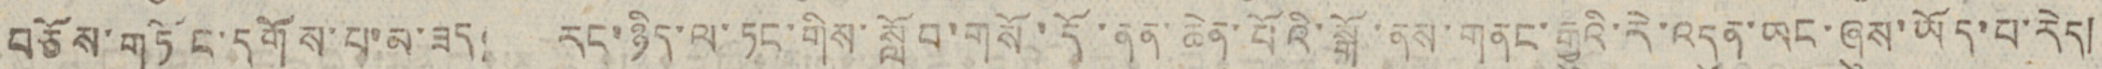བཅོས་གཏོང་དགོས་པ་མ་ཟད། རང་ཉིད་ལ་ཏང་གིས་སློབ་གསོ་དོ་ནན་ཆེན་པོའི་སྒོ་ནས་གནང་རྒྱུའི་རེ་འདུན་ཡང་ཞུས་ཡོད་པ་རེད།
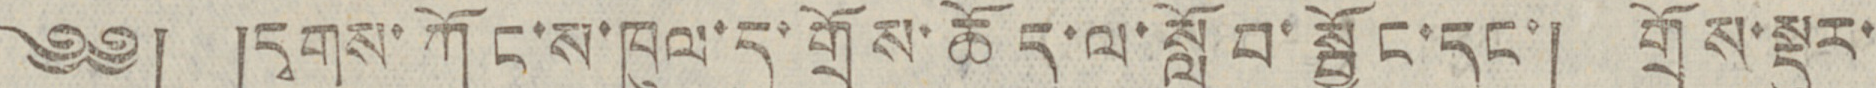༄༅། །དྭགས་ཀོང་ས་ཁུལ་དུ་གྲོས་ཆོད་ལ་སློབ་སྦྱོང་དང་། གྲོས་སྡུར་
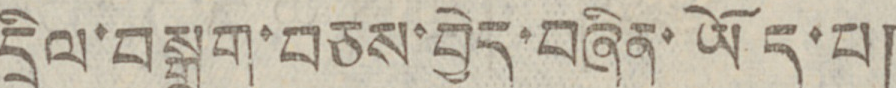དྲིལ་བསྒྲག་བཅས་བྱེད་བཞིན་ཡོད་པ།
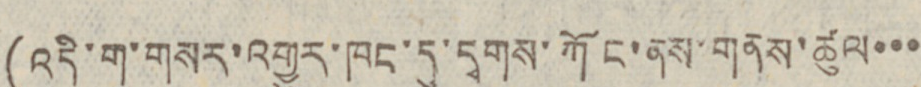(འདི་ག་གསར་འགྱུར་ཁང་དུ་དྭགས་ཀོང་ནས་གནས་ཚུལ་་་
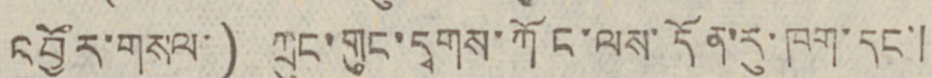འབྱོར་གསལ་) ཀྲུང་གུང་དྭགས་ཀོང་ལས་དོན་རུ་ཁག་དང་།
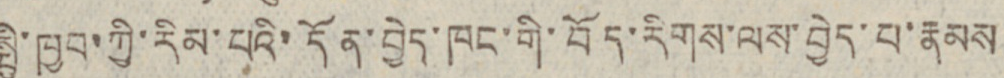སྤྱི་ཁྱབ་ཀྱི་རིམ་པའི་དོན་བྱེད་ཁང་གི་བོད་རིགས་ལས་བྱེད་པ་རྣམས
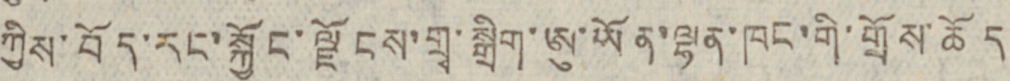ཀྱིས་བོད་རང་སྐྱོང་ལྗོངས་གྲྭ་སྒྲིག་ཨུ་ཡོན་ལྷན་ཁང་གི་གྲོས་ཆོད
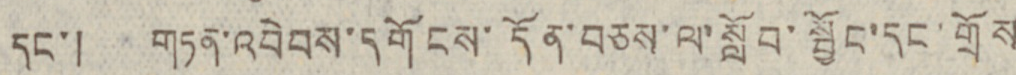དང་། གཏན་འབེབས་དགོངས་དོན་བཅས་ལ་སློབ་སྦྱོང་དང་གྲོས
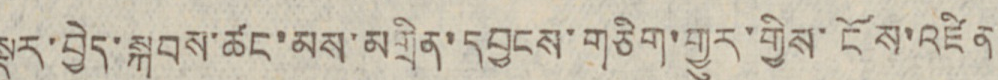སྡུར་བྱེད་སྐབས་ཚང་མས་མགྲིན་དབྱངས་གཅིག་གྱུར་གྱིས་ངོས་འཛིན
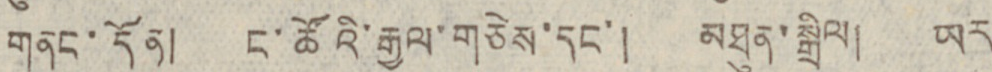གནང་དོན། ང་ཚོའི་རྒྱལ་གཅེས་དང་། མཐུན་སྒྲིལ། ཡར་
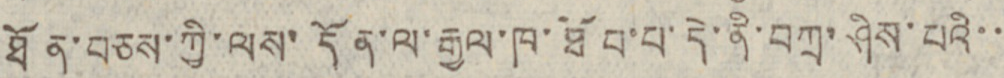ཐོན་བཅས་ཀྱི་ལས་དོན་ལ་རྒྱལ་ཁ་ཐོབ་པ་དེ་ནི་བཀྲ་ཤིས་པའི་་
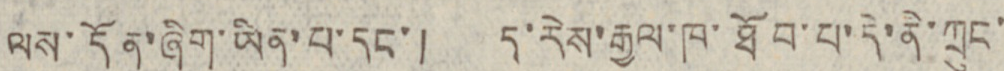ལས་དོན་ཞིག་ཡིན་པ་དང་། ད་རེས་རྒྱལ་ཁ་ཐོབ་པ་དེ་ནི་ཀྲུང་
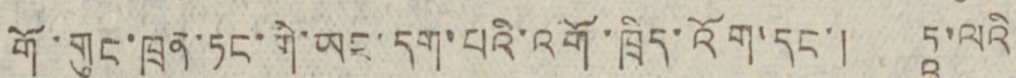གོ་གུང་ཁྲན་ཏང་གི་ཡང་དག་པའི་འགོ་ཁྲིད་འོག་དང་། ཏཱ་ལའི
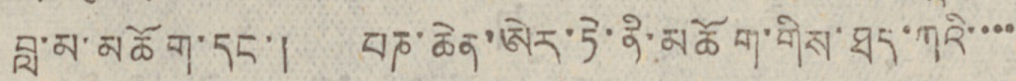བླ་མ་མཆོག་དང་། པཎ་ཆེན་ཨེར་ཏེ་ནི་མཆོག་གིས་ཐད་ཀའི་་་་
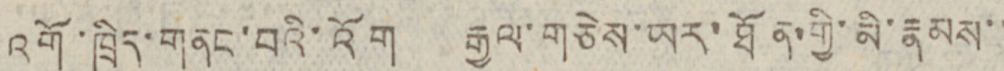འགོ་ཁྲིད་གནང་བའི་འོག རྒྱལ་གཅེས་ཡར་ཐོན་གྱི་མི་རྣམས་་
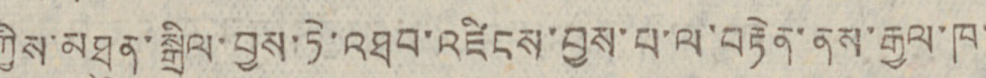ཀྱིས་མཐུན་སྒྲིལ་བྱས་ཏེ་འཐབ་འཛིངས་བྱས་པ་ལ་བརྟེན་ནས་རྒྱལ་ཁ་
